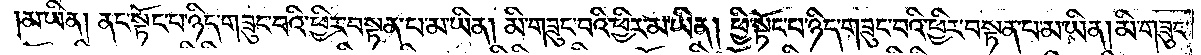མ་ཡིན། ནང་སྟོང་པ་ཉིད་གཟུང་བའི་ཕྱིར་བསྟན་པ་མ་ཡིན། མི་གཟུང་བའི་ཕྱིར་མ་ཡིན། ཕྱི་སྟོང་པ་ཉིད་གཟུང་བའི་ཕྱིར་བསྟན་པ་མ་ཡིན། མི་གཟུང་
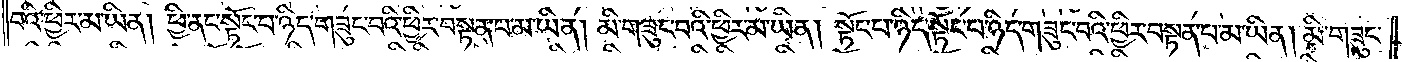བའི་ཕྱིར་མ་ཡིན། ཕྱི་ནང་སྟོང་པ་ཉིད་གཟུང་བའི་ཕྱིར་བསྟན་པ་མ་ཡིན། མི་གཟུང་བའི་ཕྱིར་མ་ཡིན། སྟོང་པ་ཉིད་སྟོང་བ་ཉིད་གཟུང་བའི་ཕྱིར་བསྟན་པ་མ་ཡིན། མི་གཟུང་
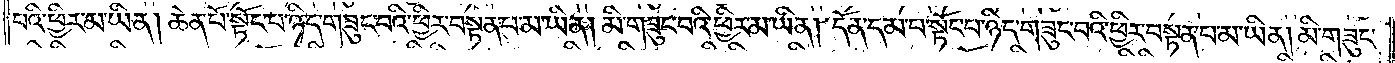པའི་ཕྱིར་མ་ཡིན། ཆེན་པོ་སྟོང་པ་ཉིད་གཟུང་བའི་ཕྱིར་བསྟན་པ་མ་ཡིན། མི་གཟུང་བའི་ཕྱིར་མ་ཡིན། དོན་དམ་པ་སྟོང་པ་ཉིད་གཟུང་བའི་ཕྱིར་བསྟན་པ་མ་ཡིན། མི་གཟུང་
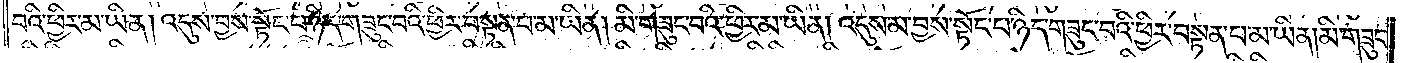བའི་ཕྱིར་མ་ཡིན། འདུས་བྱས་སྟོང་པ་ཉིད་གཟུང་བའི་ཕྱིར་བསྟན་པ་མ་ཡིན། མི་གཟུང་བའི་ཕྱིར་མ་ཡིན། འདུས་མ་བྱས་སྟོང་པ་ཉིད་གཟུང་བའི་ཕྱིར་བསྟན་པ་མ་ཡིན། མི་གཟུང་
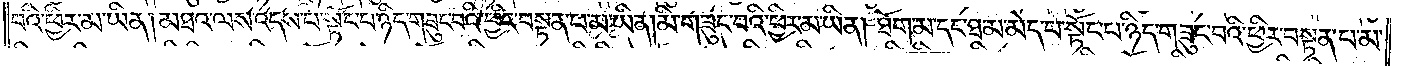བའི་ཕྱིར་མ་ཡིན། མཐའ་ལས་འདས་པ་སྟོང་པ་ཉིད་གཟུང་བའི་ཕྱིར་བསྟན་པ་མ་ཡིན། མི་གཟུང་བའི་ཕྱིར་མ་ཡིན། ཐོག་མ་དང་ཐ་མ་མེད་པ་སྟོང་པ་ཉིད་གཟུང་བའི་ཕྱིར་བསྟན་པ་མ་
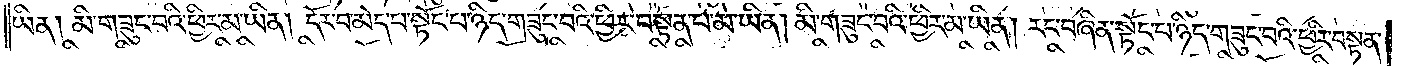ཡིན། མི་གཟུང་བའི་ཕྱིར་མ་ཡིན། དོར་བ་མེད་པ་སྟོང་པ་ཉིད་གཟུང་བའི་ཕྱིར་བསྟན་པ་མ་ཡིན། མི་གཟུང་བའི་ཕྱིར་མ་ཡིན། རང་བཞིན་སྟོང་པ་ཉིད་གཟུང་བའི་ཕྱིར་བསྟན་
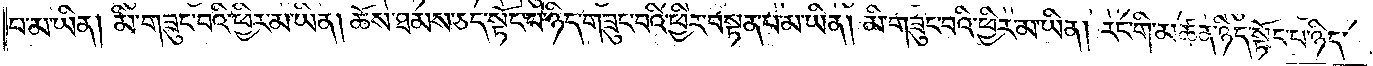པ་མ་ཡིན། མི་གཟུང་བའི་ཕྱིར་མ་ཡིན། ཆོས་ཐམས་ཅད་སྟོང་པ་ཉིད་གཟུང་བའི་ཕྱིར་བསྟན་པ་མ་ཡིན། མི་གཟུང་བའི་ཕྱིར་མ་ཡིན། རང་གི་མཚན་ཉིད་སྟོང་པ་ཉིད་
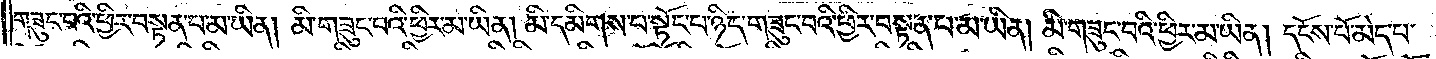གཟུང་བའི་ཕྱིར་བསྟན་པ་མ་ཡིན། མི་གཟུང་བའི་ཕྱིར་མ་ཡིན། མི་དམིགས་པ་སྟོང་པ་ཉིད་གཟུང་བའི་ཕྱིར་བསྟན་པ་མ་ཡིན། མི་གཟུང་བའི་ཕྱིར་མ་ཡིན། དངོས་པོ་མེད་པ་
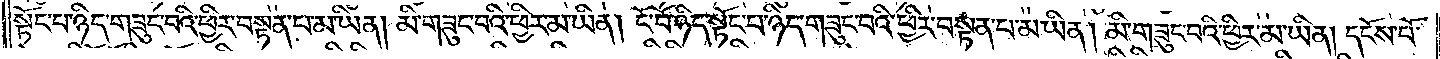སྟོང་པ་ཉིད་གཟུང་བའི་ཕྱིར་བསྟན་པ་མ་ཡིན། མི་གཟུང་བའི་ཕྱིར་མ་ཡིན། ངོ་བོ་ཉིད་སྟོང་པ་ཉིད་གཟུང་བའི་ཕྱིར་བསྟན་པ་མ་ཡིན། མི་གཟུང་བའི་ཕྱིར་མ་ཡིན། དངོས་པོ་
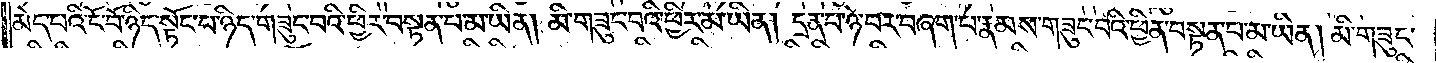མེད་པའི་ངོ་བོ་ཉིད་སྟོང་པ་ཉིད་གཟུང་བའི་ཕྱིར་བསྟན་པ་མ་ཡིན། མི་གཟུང་བའི་ཕྱིར་མ་ཡིན། དྲན་པ་ཉེ་བར་བཞག་པ་རྣམས་གཟུང་བའི་ཕྱིར་བསྟན་པ་མ་ཡིན། མི་གཟུང་
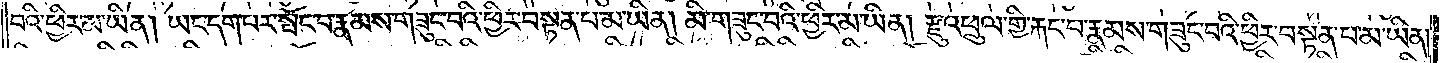བའི་ཕྱིར་མ་ཡིན། ཡང་དག་པར་སྤོང་བ་རྣམས་གཟུང་བའི་ཕྱིར་བསྟན་པ་མ་ཡིན། མི་གཟུང་བའི་ཕྱིར་མ་ཡིན། རྫུ་འཕྲུལ་གྱི་རྐང་པ་རྣམས་གཟུང་བའི་ཕྱིར་བསྟན་པ་མ་ཡིན།
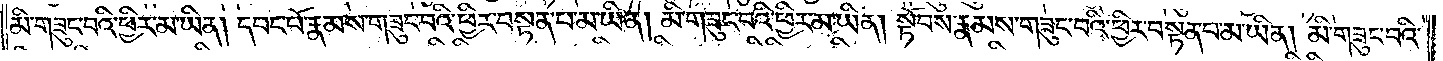མི་གཟུང་བའི་ཕྱིར་མ་ཡིན། དབང་པོ་རྣམས་གཟུང་བའི་ཕྱིར་བསྟན་པ་མ་ཡིན། མི་གཟུང་བའི་ཕྱིར་མ་ཡིན། སྟོབས་རྣམས་གཟུང་བའི་ཕྱིར་བསྟན་པ་མ་ཡིན། མི་གཟུང་བའི་
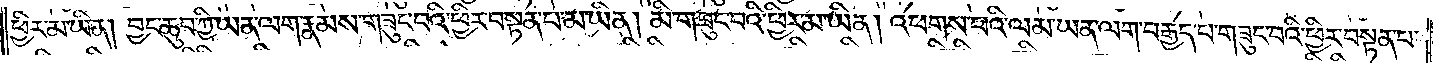ཕྱིར་མ་ཡིན། བྱང་ཆུབ་ཀྱི་ཡན་ལག་རྣམས་གཟུང་བའི་ཕྱིར་བསྟན་པ་མ་ཡིན། མི་གཟུང་བའི་ཕྱིར་མ་ཡིན། འཕགས་པའི་ལམ་ཡན་ལག་བརྒྱད་པ་གཟུང་བའི་ཕྱིར་བསྟན་པ་
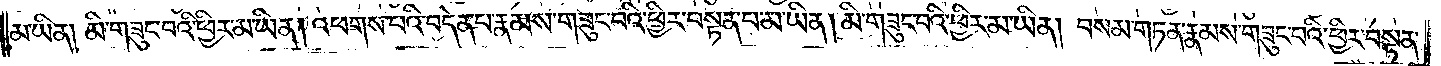མ་ཡིན། མི་གཟུང་བའི་ཕྱིར་མ་ཡིན། འཕགས་པའི་བདེན་པ་རྣམས་གཟུང་བའི་ཕྱིར་བསྟན་པ་མ་ཡིན། མི་གཟུང་བའི་ཕྱིར་མ་ཡིན། བསམ་གཏན་རྣམས་གཟུང་བའི་ཕྱིར་བསྟན་
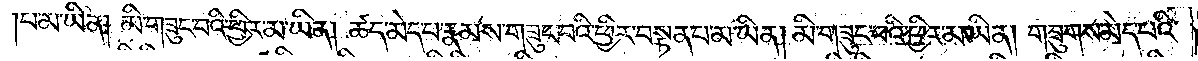པ་མ་ཡིན། མི་གཟུང་བའི་ཕྱིར་མ་ཡིན། ཚད་མེད་པ་རྣམས་གཟུང་བའི་ཕྱིར་བསྟན་པ་མ་ཡིན། མི་གཟུང་བའི་ཕྱིར་མ་ཡིན། གཟུགས་མེད་པའི་
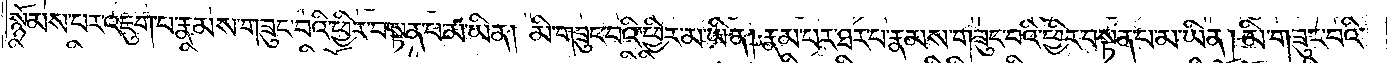སྙོམས་པར་འཇུག་པ་རྣམས་གཟུང་བའི་ཕྱིར་བསྟན་པ་མ་ཡིན། མི་གཟུང་བའི་ཕྱིར་མ་ཡིན། རྣམ་པར་ཐར་པ་རྣམས་གཟུང་བའི་ཕྱིར་བསྟན་པ་མ་ཡིན། མི་གཟུང་བའི་
